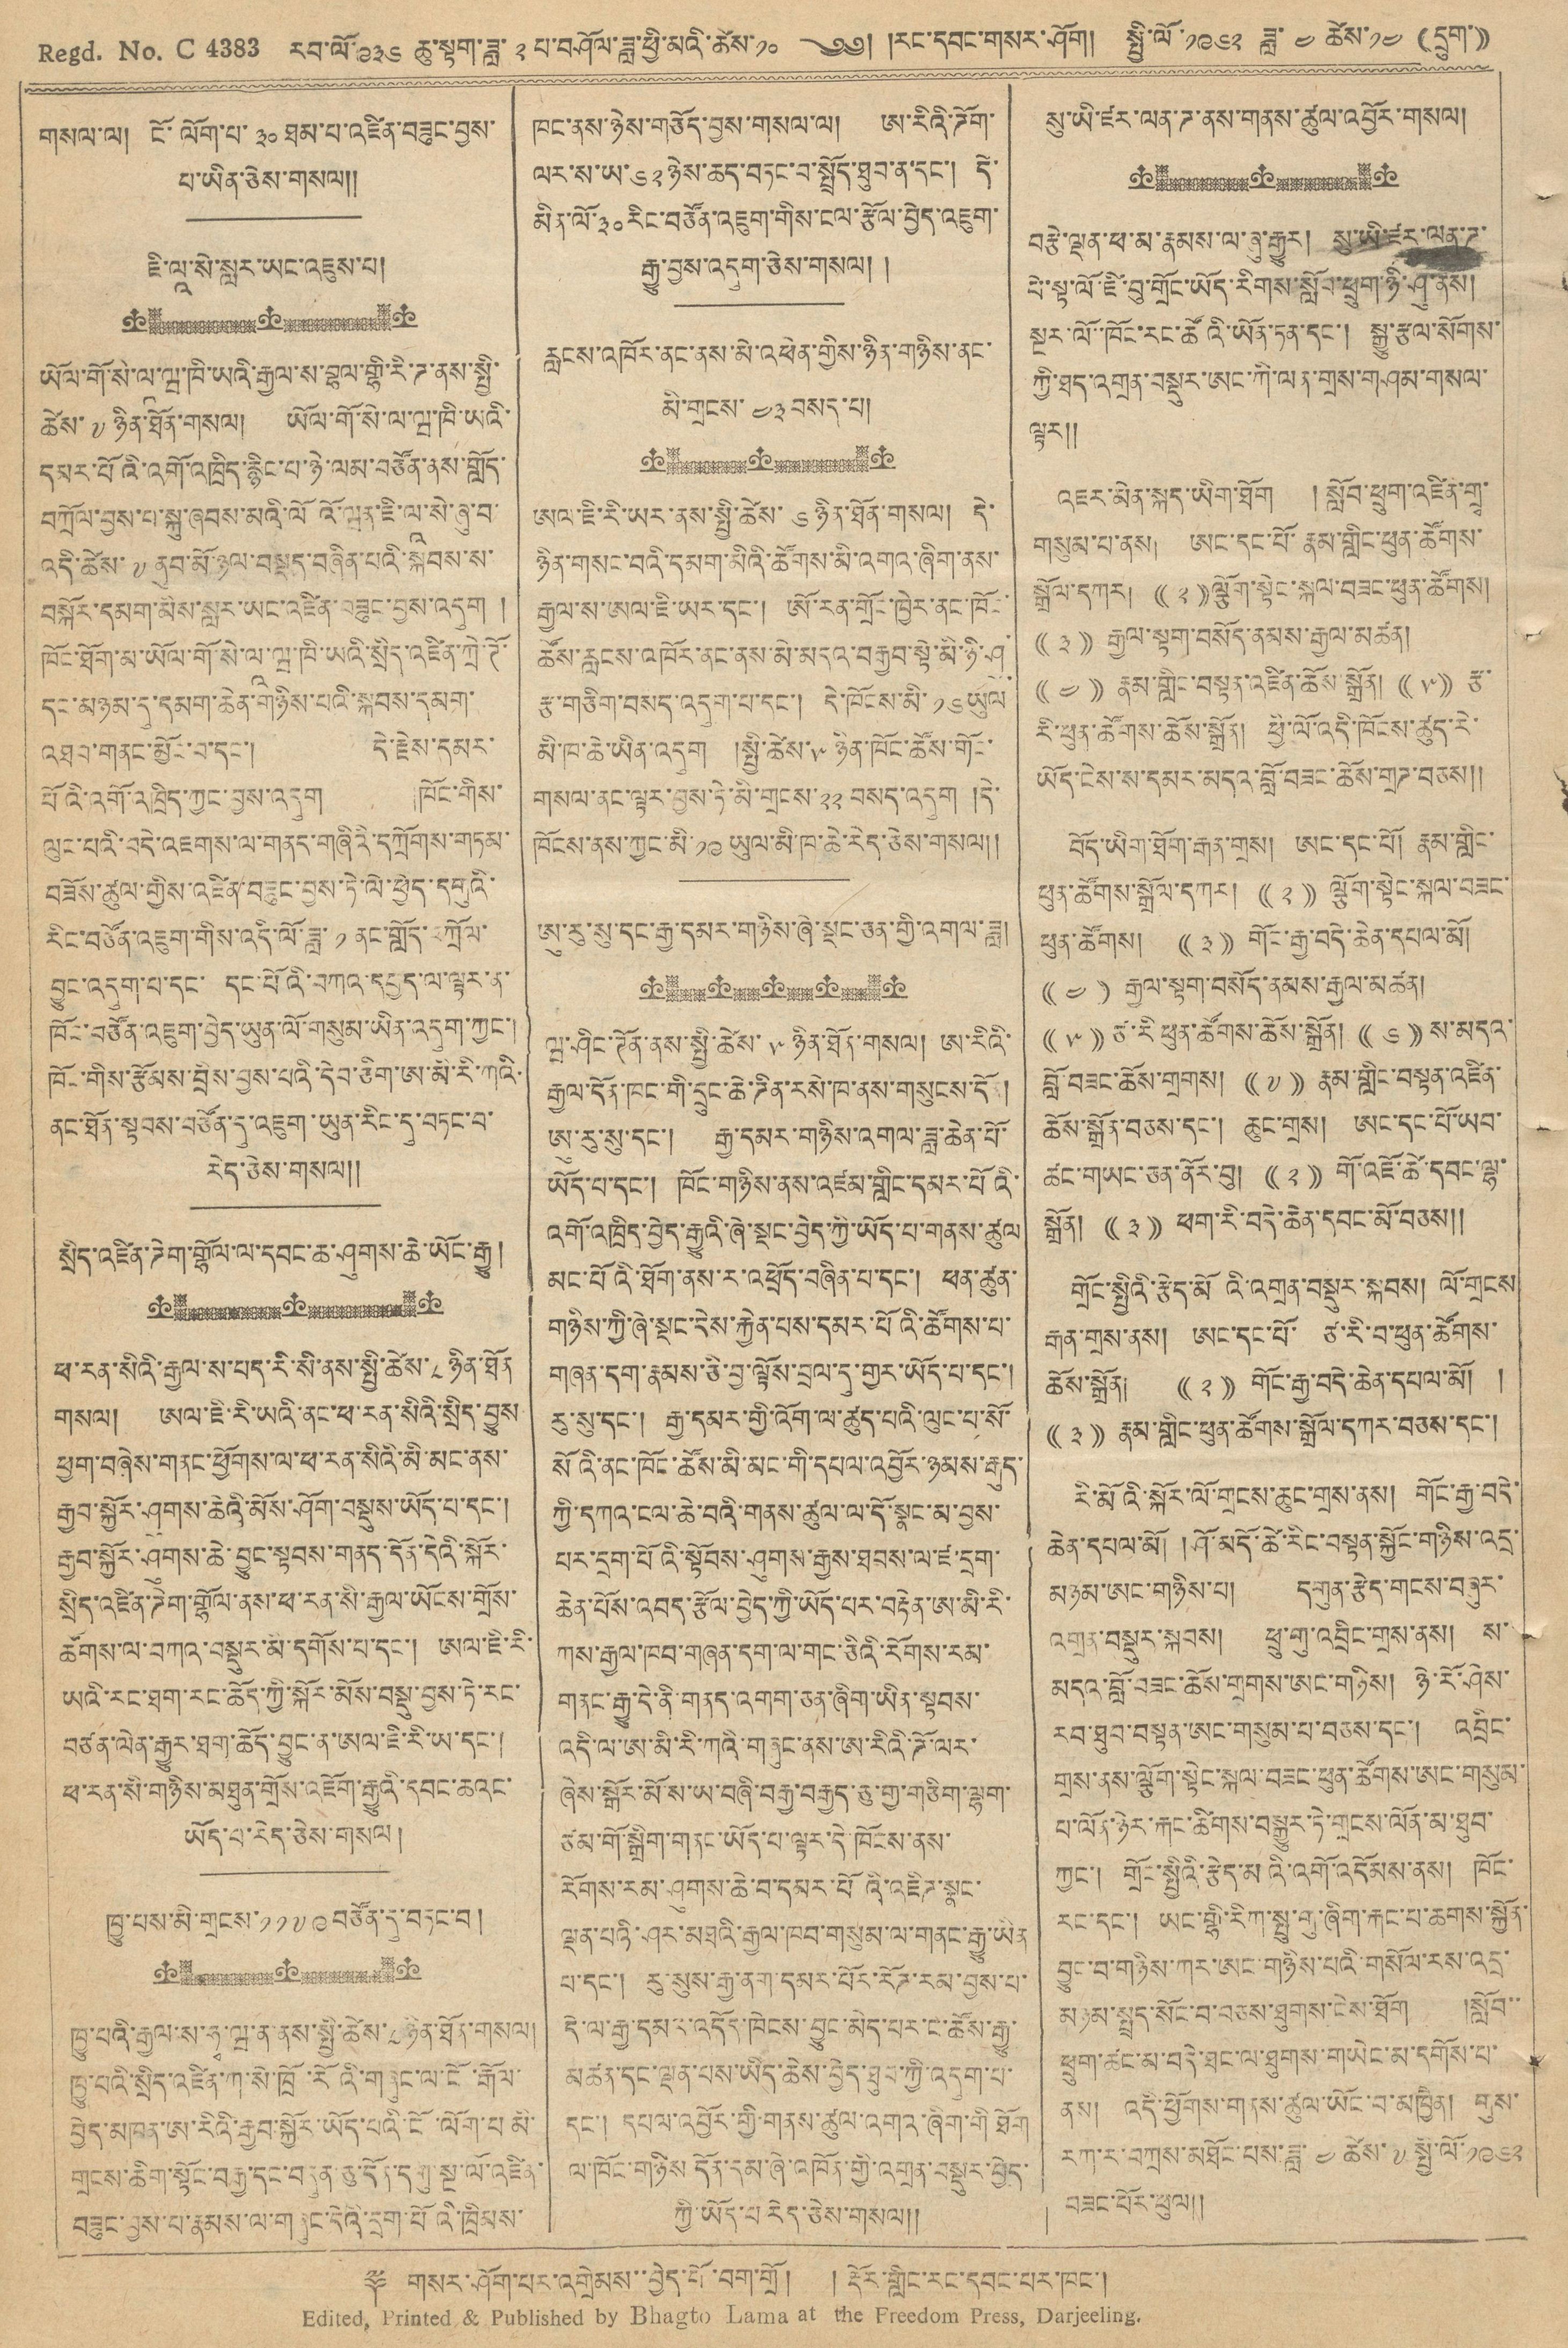Regd. NO. C 4383 རབ་ལོ་ ༩༣༦ ཆུ་སྟག་ཟླ་ ༢ པ་བཤོལ་ཟླ་ཕྱི་མའི་ཚེས་༡༠ ༄༅། །རང་དབང་གསར་ཤོག། སྤྱི་ལོ་ ༡༩༦༢ ཟླ་ ༤ ཚེས་ ༡༤ (དྲུག་))
གསལ་ལ། ངོ་ལོག་པ་ ༣༠ ཐམ་པ་འཛིན་བཟུང་བྱས་
པ་ཡིན་ཅེས་གསལ།།
ཇི་ལཱ་སེ་སླར་ཡང་འཇུས་པ།
ཁང་ནས་ཉེས་གཅོད་བྱས་གསལ་ལ། ཨ་རིའི་ཌོག་
ལར་ས་༥་༦༢ཉེས་ཆད་བཏང་བ་སྤྲོད་ཐུབ་ན་དང་། དེ་
མིན་ལོ་༣༠ རིང་བཙོན་འཇུག་གིས་ངལ་རྩོལ་བྱེད་འཇུག་
རྒྱུ་བྱས་འདུག་ཅེས་གསལ། །
སུ་ཡི་ཛར་ལན་ཌ་ནས་གནས་ཚུལ་འབྱོར་གསལ།
ཡོལ་གོ་སེ་ལཱ་ཝ་ཁི་ཡའི་རྒྱལ་ས་བྷལ་གྷི་རི་ཌ་ནས་སྤྱི་
ཚེས་ ༧ ཉིན་ཐོན་གསལ། ཡོལ་གོ་སེ་ལ་ཝ་ཁི་ཡའི་
དམར་པོའི་འགོ་འཁྲིད་རྙིང་པ་ཉེ་ལམ་བཙོན་ནས་གློད་
བཀྲོལ་བྱས་པ་སྐུ་ཞབས་མའི་ལོའོ་ཝན་ཇི་ལཱ་སེ་ཞུ་བ་
འདི་ཚེས་ ༧ ནུབ་མོ་ཉལ་བསྡད་བཞིན་པའི་སྐབས་ས་
བསྐོར་དམག་མིས་སླར་ཡང་འཛིན་བཟུང་བྱས་འདུག །
ཁོང་ཐོག་མ་ཡོལ་གོ་སེ་ལཱ་ཝ་ཁི་ཡའི་སྲིད་འཛིན་ཀྲེ་ཊོ་
དང་མཉམ་དུ་དམག་ཆེན་གཉིས་པའི་སྐབས་དམག་
འཐབ་གནང་མྱོང་བ་དང་། དེ་རྗེས་དམར་
པོའི་འགོ་འཁྲིད་ཀྱང་བྱས་འདུག །ཁོང་གིས་
ལུང་པའི་བདེ་འཇགས་ལ་གནད་གཞིའི་དཀྲོགས་གཏམ་
བཟོས་ཚུལ་གྱིས་འཛིན་བཟུང་བྱས་ཏེ་ལེ་ཕྱེད་དགུའི་
རིང་བཙོན་འཇུག་གིས་འདི་ལོ་ཟླ་ ༡ ནང་གློད་བཀྲོལ་
བྱུང་འདུག་པ་དང་ དང་པོའི་བཀའ་དཔྱད་ལ་ལྟར་ན་
ཁོང་བཙོན་འཇུག་བྱེད་ཡུན་ལོ་གསུམ་ཡིན་འདུག་ཀྱང་།
ཁོང་གིས་རྩོམས་བྲིས་བྱས་པའི་དེབ་ཅིག་ཨ་མི་རི་ཀའི་
ནང་ཐོན་སྟབས་བཙོན་དུ་འཇུག་ཡུན་རིང་དུ་བཏང་བ་
རེད་ཅེས་གསལ།།
རླངས་འཁོར་ནང་ནས་མེ་འཕེན་གྱིས་ཉིན་གཉིས་ནང་
མི་གྲངས་ ༤༣ བསད་པ།
ཨལ་ཇི་རི་ཡར་ནས་སྤྱི་ཚེས་ ༦ ཉིན་ཐོན་གསལ། དེ་
ཉིན་གསང་བའི་དམག་མིའི་ཚོགས་མི་འགའ་ཞིག་ནས་
རྒྱལ་ས་ཨལ་ཇི་ཡར་དང་། ཨོ་རན་གྲོང་ཁྱེར་ནང་ཁོང་
ཚོས་རླངས་འཁོར་ནང་ནས་མེ་མདའ་བརྒྱབ་སྟེ་མི་ཉི་ཤུ་
རྩ་གཅིག་བསད་འདུག་པ་དང་། དེ་ཁོངས་མི་ ༡༦ ཡུལ
མི་ཁ་ཆེ་ཡིན་འདུག །སྤྱི་ཚེས་ ༥ ཉིན་ཁོང་ཚོས་གོང་
གསལ་ནང་ལྟར་བྱས་ཏེ་མི་གྲངས་ ༢༢ བསད་འདུག །དེ་
ཁོངས་ནས་ཀྱང་མི་༡༩ ཡུལ་མི་ཁ་ཆེ་རེད་ཅེས་གསལ།།
ཨུ་རུ་སུ་དང་རྒྱ་དམར་གཉིས་ཞེ་སྡང་ཅན་གྱི་འགལ་ཟླ།
འཇར་མེན་སྐད་ཡིག་ཐོག །སློབ་ཕྲུག་འཛིན་གྲྭ་
གསུམ་པ་ནས། ཨང་དང་པོ་རྣམ་གླིང་ཕུན་ཚོགས་
སྒྲོལ་དཀར། (( ༢ ))ལྕོག་སྟེང་སྐལ་བཟང་ཕུན་ཚོགས།
(( ༣ )) རྒྱལ་སྟག་བསོད་ནམས་རྒྱལ་མཚན།
(( ༤ )) རྣམ་གླིང་བསྟན་འཛིན་ཆོས་སྒྲོན། (( ༥ )) རྩ་
རི་ཕུན་ཚོགས་ཆོས་སྒྲོན། ཕྱི་ལོ་འདི་ཁོངས་ཚུད་རེ་
ཡོད་ངེས་ས་དམར་མདའ་བློ་བཟང་ཆོས་གྲཌ་བཅས།།
བོད་ཡིག་ཐོག་རྒན་གྲས། ཨང་དང་པོ། རྣམ་གླིང་
ཕུན་ཚོགས་སྒྲོལ་དཀར། (( ༢ )) ལྕོག་སྟེང་སྐལ་བཟང་
ཕུན་ཚོགས། (( ༣ )) གོང་རྒྱ་བདེ་ཆེན་དཔལ་མོ།
(( ༤ )) རྒྱལ་སྟག་བསོད་ནམས་རྒྱལ་མཚན།།
(( ༥ )) ཙ་རི ཕུན་ཚོགས་ཆོས་སྒྲོན། (( ༦ )) ས་མདའ་
བློ་བཟང་ཆོས་གྲགས། (( ༧ )) རྣམ་གླིང་བསྟན་འཛིན་
ཆོས་སྒྲོན་བཅས་དང་། ཆུང་གྲས། ཨང་དང་པོ་ཡབ་
ཚང་གཡང་ཅན་ནོར་བུ། (( ༢ )) གོ་འཛོ་ཚེ་དབང་ལྷ་
སྒྲོན། (( ༣ )) ཕག་རི་བདེ་ཆེན་དབང་མོ་བཅས།།
སྲིད་འཛིན་ཌེག་གྷོལ་ལ་དབང་ཆ་ཤུགས་ཆེ་ཡོང་རྒྱུ།
ཕ་རན་སིའི་རྒྱལ་ས་པད་རི་སི་ནས་སྤྱི་ཚེས་ ༨ ཉིན་ཐོན་
གསལ། ཨལ་ཇི་རི་ཡའི་ནང་ཕ་རན་སིའི་སྲིད་བྱུས
ཕྱག་བཞེས་གནང་ཕྱོགས་ལ་ཕ་རན་སིའི་མི་མང་ནས་
རྒྱབ་སྐྱོར་ཤུགས་ཆེའི་མོས་ཤོག་བསྡུས་ཡོད་པ་དང་།
རྒྱབ་སྐྱོར་ཤུགས་ཆེ་བྱུང་སྟབས་གནད་དོན་དེའི་སྐོར་
སྲིད་འཛིན་ཌེག་གྷོལ་ནས་ཕ་རན་སི་རྒྱལ་ཡོངས་གྲོས་
ཚོགས་ལ་བཀའ་བསྡུར་མི་དགོས་པ་དང་། ཨལ་ཇི་རི་
ཡའི་རང་ཐག་རང་ཆོད་ཀྱི་སྐོར་མོས་བསྡུ་བྱས་ཏེ་རང་
བཙན་ལེན་རྒྱུར་ཐག་ཆོད་བྱུང་ན་ཨལ་ཇི་རི་ཡ་དང་།
ཕ་རན་སི་གཉིས་མཐུན་གྲོས་འཇོག་རྒྱུའི་དབང་ཆའང་
ཡོད་པ་རེད་ཅེས་གསལ།
ཁྱུ་པས་མི་གྲངས་ ༡༡༧༩ བཙོན་དུ་བཏང་བ།
ཁྱུ་པའི་རྒྱལ་ས་ཧྭ་ཝ་ན་ནས་སྤྱི་ཚེས་ ༨ ཉིན་ཐོན་གསལ།
ཁྱུ་བའི་སྲིད་འཛིན་ཀ་སེ་ཁྲོ་རོའི་གཞུང་ལ་ངོ་རྒོལ་
བྱེད་མཁན་ཨ་རིའི་རྒྱབ་སྐྱོར་ཡོད་པའི་ངོ་ལོག་པ མི་
གྲངས་ཆིག་སྟོང་བརྒྱ་དང་བདུན་ཅུ་དོན་དགུ་སྔ་ལོ་འཛིན་།
བཟུང་བྱས་པ་རྣམས་ལ་གཞུང་དེའི་དྲག་པོའི་ཁྲིམས་
ཝ་ཤིང་ཊོན་ནས་སྤྱི་ཚེས་ ༥ ཉིན་ཐོན་གསལ། ཨ་རིའི་
རྒྱལ་དོན་ཁང་གི་དྲུང་ཆེ་ཌིན་རསེ་ཁ་ནས་གསུངས་དོན།
ཨུ་རུ་སུ་དང་། རྒྱ་དམར་གཉིས་འགལ་ཟླ་ཆེན་པོ་
ཡོད་པ་དང་། ཁོང་གཉིས་ནས་འཛམ་གླིང་དམར་པོའི་
འགོ་འཁྲིད་བྱེད་རྒྱུའི་ཞེ་སྡུང་བྱེད་ཀྱི་ཡོད་པ་གནས་ཚུལ
མང་པོའི་ཐོག་ནས་ར་འཕྲོད་བཞིན་པ་དང་། ཕན་ཚུན་
གཉིས་ཀྱི་ཞེ་སྡང་དེས་རྐྱེན་པས་དམར་པོའི་ཚོགས་པ་
གཞན་དག་རྣམས་ཅི་བྱ་ལྟོས་བྲལ་དུ་གྱུར་ཡོད་པ་དང་།
རུ་སུ་དང་། རྒྱ་དམར་གྱི་འོག་ལ་ཚུད་པའི་ལུང་པ་སོ་
སོའི་ནང་ཁོང་ཚོས་མི་མང་གི་དཔལ་འབྱོར་ཉམས་རྒུད་
ཀྱི་དཀའ་ངལ་ཆེ་བའི་གནས་ཚུལ་ལ་དོ་སྣང་མ་བྱས་
པར་དྲག་པོའི་སྟོབས་ཤུགས་རྒྱས་ཐབས་ལ་ཛ་དྲག་
ཆེན་པོས་འབད་རྩོལ་བྱེད་ཀྱི་ཡོད་པར་བརྟེན་ཨ་མི་རི་
ཀས་རྒྱལ་ཁབ་གཞན་དག་ལ་གང་ཅིའི་རོགས་རམ་
གནང་རྒྱུ་དེ་ནི་གནད་འགག་ཅན་ཞིག་ཡིན་སྟབས་
འདི་ལ་ཨ་མི་རི་ཀའི་གཞུང་ནས་ཨ་རིའི་ཌོ་ལར་
ཞེས་སྒོར་མོ་ས་ཡ་བཞི་བརྒྱ་བརྒྱད་ཅུ་གྱ་གཅིག་ལྷག་
ཙམ་གོ་སྒྲིག་གནང་ཡོད་པ་ལྟར་དེ་ཁོངས་ནས་
རོགས་རམ་ཤུགས་ཆེ་བ་དམར་པོའི་འཇིཌ་སྣང་
ལྡན་པའི་ཤར་མཐའི་རྒྱལ་ཁབ་གསུམ་ལ་གནང་རྒྱུ་ཡིན།
པ་དང་། རུ་སུས་རྒྱ་ནག་དམར་པོར་རོཌ་རམ་བྱས་པ་
དེ་ལ་རྒྱ་དམ་ར་འདོད་ཁེངས་བྱུང་མེད་པར་ང་ཚོས་རྒྱུ་
མཚན་དང་ལྡན་པས་ཡིད་ཆེས་བྱེད་ཐུབ་ཀྱི་འདུག་པ་
དང་། དཔལ་འབྱོར་གྱི་གནས་ཚུལ་འགའ་ཞིག་གི་ཐོག
ལ་ཁོང་གཉིས དོན་དམ་ཞེ་འཁོན་གྱི་འགྲན་བསྡུར་བྱེད་
ཀྱི་ཡོད་པ རེད་ཅེས་གསལ།།
གྲོང་སྤྱིའི་རྩེད་མོའི་འགྲན་བསྡུར་སྐབས། ལོ་གྲངས
རྒན་གྲས་ནས། ཨང་དང་པོ་ ཙ་རི་བ་ཕུན་ཚོགས་
ཆོས་སྒྲོན། (( ༢ )) གོང་རྒྱ་བདེ་ཆེན་དཔལ་མོ། །
(( ༣ )) རྣམ་གླིང་ཕུན་ཚོགས་སྒྲོལ་དཀར་བཅས་དང་།
རི་མོའི་སྐོར་ལོ་གྲངས་ཆུང་གྲས་ནས། གོང་རྒྱ་བདེ་
ཆེན་དཔལ་མོ། །ཤོ་མདོ་ཚེ་རིང་བསྟན་སྐྱོང་གཉིས་འདྲ་
མཉམ་ཨང་གཉིས་པ། དགུན་རྩེད་གངས་བཞུར་
འགྲན་བསྡུར་སྐབས། ཕྲུ་གུ་འབྲིང་གྲས་ནས། ས་
མདའ་བློ་བཟང་ཆོས་གྲགས་ཨང་གཉིས། ཉེ་རོ་ཤེས་
རབ་ཐུབ་བསྟན་ཨང་གསུམ་པ་བཅས་དང་། འབྲིང་
གྲས་ནས་ལྕོག་སྟེང་སྐལ་བཟང་ཕུན་ཚོགས་ཨང་གསུམ་
པ་ལོན་ཉེར་རྐང་ཚིགས་བསྒྱུར་ཏེ་གྲངས་ལོན་མ་ཐུབ་
ཀྱང་། གྲོང་སྤྱིའི་རྩེད་མའི་འགོ་འདོམས་ནས། ཁོང་
རང་དང་། ཡང་གྷི་རིག་སྤུ་གུ་ཞིག་རྐང་པ་ཆགས་སྐྱོན་
བྱུང་བ་གཉིས་ཀར་ཨང་གཉིས་པའི་གསོལ་རས་འདྲ་
མཉམ་སྤྲད་སོང་བ་བཅས་ཐུགས་ངེས་ཐོག །སློབ་་
ཕྲུག་ཚང་མ་བདེ་ཐང་ལ་ཐུགས་གཡེང་མ་དགོས་པ་
ནས། འདི་ཕྱོགས་གནས་ཚུལ་ཡོང་བ་མཁྱེན། གུས་
རཀ་ར་བཀྲས་མཐོང་པས་ཟླ་ ༤ ཚེས་ ༧ སྤྱི་ལོ་ ༡༩༦༢
བཟང་པོར་ཕུལ།།
༈ གསར་ཤོག་པར་འགྲེམས་་བྱེད་པོ་བག་གྲོ། །རྡོར་གླིང་རང་དབང་པར་ཁང་།
Edited, Printed & Published by Bhagto Lama at the Freedom Press, Darjeeling.
བརྩེ་ལྡན་ཕ་མ་རྣམས་ལ་ཞུ་རྒྱུར། སུ་ཡི་ཛར་ལན་ཌ་
པེ་སྟ་ལོ་ཇི་བུ་གྲོང་ཡོད་རིགས་སློབ་ཕྲུག་ཉི་ཤུ་ནས།
སྔར་ལོ་ཁོང་རང་ཚོའི་ཡོན་ཏན་དང་། སྒྱུ་རྩལ་སོགས་
ཀྱི་ཐད་འགྲན་བསྡུར་ཨང་ཀི་ལན་གྲས་གཤམ་གསལ་
ལྟར།།
